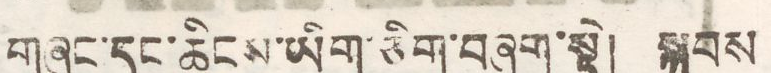གཞུང་དང་ཆིངས་ཡིག་ཅིག་བཞག་སྟེ། སྐབས
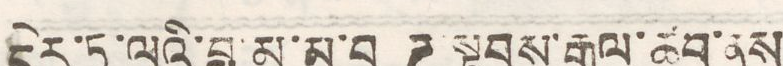དེར་ཏཱ་ལའི་བླ་མ་མ་བདུཌ་སྟབས་རྒྱལ་ཚབ་ནས
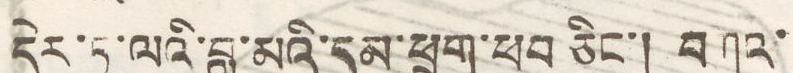དེར་ཏཱ་ལའི་བླ་མའི་དམ་ཕྲུག་ཕབ ཅིང་། བགའ་
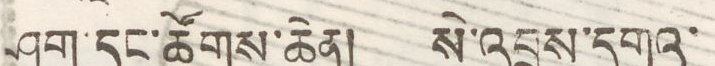ཤག་དང་ཚོགས་ཆེན། སེ་འབྲས་དགའ་
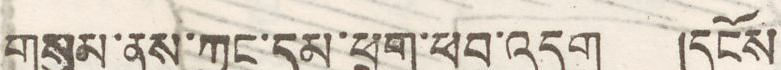གསུམ་ནས་ཀྱང་དམ་ཕྲུག་ཕབ་འདུག །དངོས
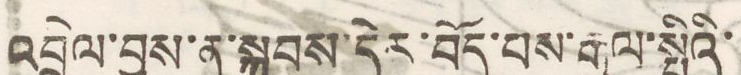འབྲེལ་བྱས་ན་སྐབས་དེར་བོད་པས་རྒྱལ་སྤྱིའི་
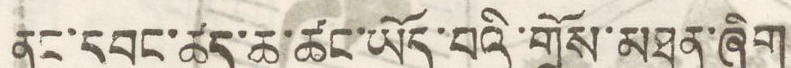ནང་དབང་ཚད་ཆ་ཚང་ཡོད་པའི་གྲོས་མཐུན་ཞིག
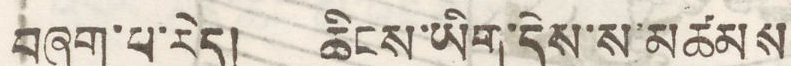བཞག་པ་རེད། ཆིངས་ཡིག་དེས་ས་མཚམས
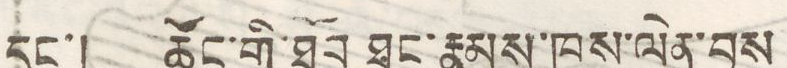དང་། ཚོང་གི་ཐོབ ཐང་རྣམས་ཁས་ལེན་བྱས
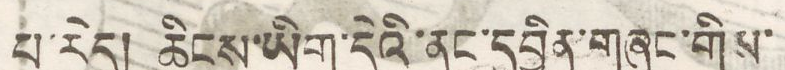པ་རེད། ཆིངས་ཡིག་དེའི་ནང་དབྱིན་གཞུང་གིས་
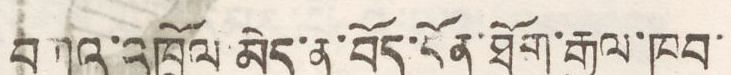བཀའ་འཁྲོལ་མེད་ན་བོད་དོན་ཐོག་རྒྱལ་ཁབ་
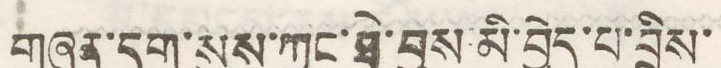གཞན་དག་སུས་ཀྱང་ཐེ་བྱུས མི་བྱེད་པ་བྲིས་
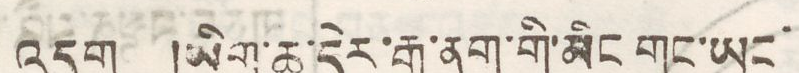འདུག །ཡིག་ཆ་དེར་རྒྱ་ནག་གི་མིང གང་ཡང་
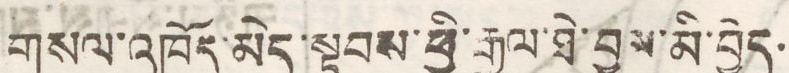གསལ་འཁོད་མེད་སྟབས་ཕྱི་རྒྱལ་ཐེ་བྱུས་མི་བྱེད
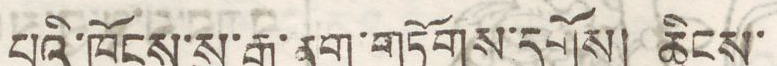པའི་ཁོངས་སུ་རྒྱ་ནག་གཏོགས་དགོས། ཆིངས་
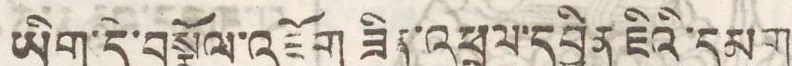ཡིག་དེ་བསྣོལ་འཇོག ཟིན་འཕྲལ་དབྱིན ཇིའི་དམག
